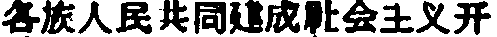各族人民共同建成社会主义开
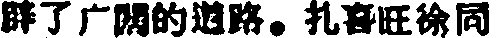辟了广闊的道路。扎喜旺徐同
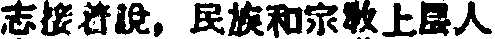志接着說，民族和宗敎上层人
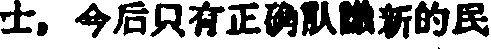士，今后只有正确认識新的民
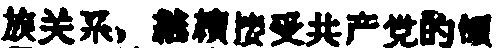族关系，継續援受共产党的領
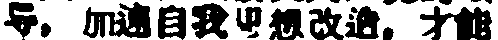导，加強自我思想改造。才能
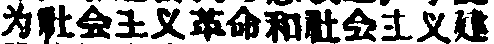为社会主义革命和社会主义建
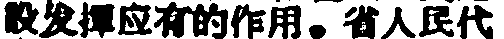設发揮应有的作用。省人民代
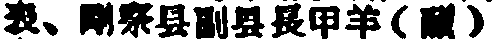表、剛察县副里長甲羊（藏）
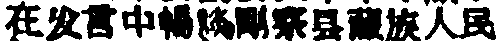在发言中暢談剛察县藏族人民
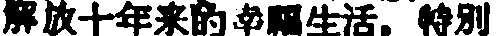解放十年来的幸福生活，特別
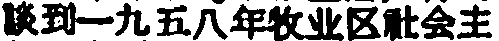談到一九五八年牧业区社会主
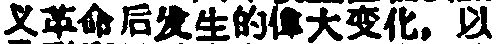义革命后发生的偉大变化，以
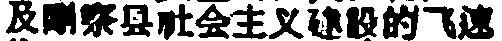及剛察县社会主义建設的工速
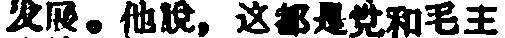发展。他說，这都是党和毛主
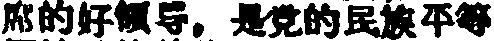席的好領导。是党的民族平等
